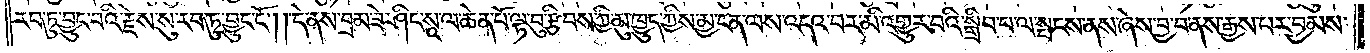རབ་ཏུ་བྱུང་བའི་རྗེས་སུ་རབ་ཏུ་བྱུང་ངོ༌། །དེ་ནས་བྲམ་ཟེ་ཤིང་སཱ་ལ་ཆེན་པོ་ལྟ་བུ་རྩིབས་ཀྱི་མུ་ཁྱུད་ཀྱིས་མྱ་ངན་ལས་འདའ་བར་མི་འགྱུར་བའི་སྒྲིབ་པ་ལ་སྤངས་ནས་ཞེས་བྱ་བ་ནས་རྒྱས་པར་བྱམས་
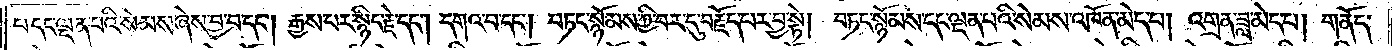པ་དང་ལྡན་པའི་སེམས་ཞེས་བྱ་བ་དང༌། རྒྱས་པར་སྙིང་རྗེ་དང༌། དགའ་བ་དང༌། བཏང་སྙོམས་ཀྱི་བར་དུ་བརྗོད་པར་བྱ་སྟེ། བཏང་སྙོམས་དང་ལྡན་པའི་སེམས་འཁོན་མེད་པ། འགྲན་ཟླ་མེད་པ། གནོད་
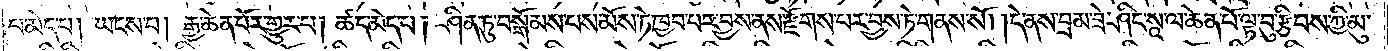པ་མེད་པ། ཡངས་པ། རྒྱ་ཆེན་པོར་གྱུར་པ། ཚད་མེད་པ། ཤིན་ཏུ་བསྒོམས་པས་མོས་ཏེ་ཁྱབ་པར་བྱས་ནས་རྫོགས་པར་བྱས་ཏེ་གནས་སོ། །དེ་ནས་བྲམ་ཟེ་ཤིང་སཱ་ལ་ཆེན་པོ་ལྟ་བུ་རྩིབས་ཀྱི་མུ་
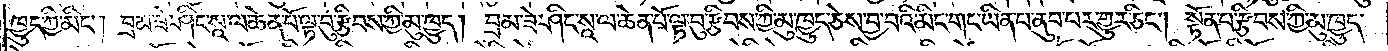ཁྱུད་ཀྱི་མིང༌། བྲམ་ཟེ་ཤིང་སཱ་ལ་ཆེན་པོ་ལྟ་བུ་རྩིབས་ཀྱི་མུ་ཁྱུད། བྲམ་ཟེ་ཤིང་སཱ་ལ་ཆེན་པོ་ལྟ་བུ་རྩིབས་ཀྱི་མུ་ཁྱུད་ཅེས་བྱ་བའི་མིང་གང་ཡིན་པ་ནུབ་པར་གྱུར་ཅིང༌། སྟོན་པ་རྩིབས་ཀྱི་མུ་ཁྱུད་
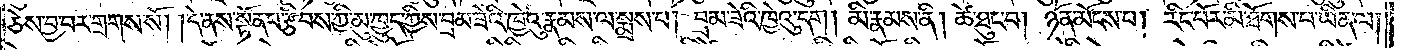ཅེས་བྱ་བར་གྲགས་སོ། །དེ་ནས་སྟོན་པ་རྩིབས་ཀྱི་མུ་ཁྱུད་ཀྱིས་བྲམ་ཟེའི་ཁྱེའུ་རྣམས་ལ་སྨྲས་པ། བྲམ་ཟེའི་ཁྱེའུ་དག །མི་རྣམས་ནི། ཚེ་ཐུང་བ། ཉོན་མོངས་པ། རིང་པོར་མི་ཐོགས་པ་ཡིན་ལ།
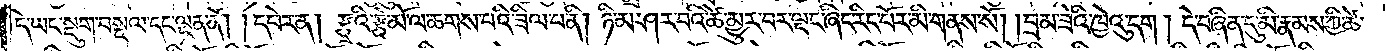དེ་ཡང་སྡུག་བསྔལ་དང་ལྡན་ནོ། །དཔེར་ན། རྩྭའི་རྩེ་མོ་ལ་ཆགས་པའི་ཟིལ་པ་ནི། ཉི་མ་ཤར་བའི་ཚེ་མྱུར་བར་ལྡང་ཞིང་རིང་པོར་མི་གནས་སོ། །བྲམ་ཟེའི་ཁྱེའུ་དག །དེ་བཞིན་དུ་མི་རྣམས་ཀྱི་ཚེ་
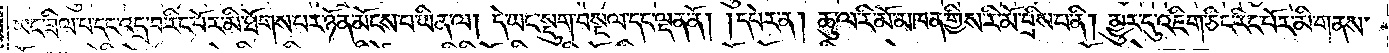ཡང་ཟིལ་པ་དང་འདྲ་བ་རིང་པོར་མི་ཐོགས་པར་ཉོན་མོངས་པ་ཡིན་ལ། དེ་ཡང་སྡུག་བསྔལ་དང་ལྡན་ནོ། །དཔེར་ན། ཆུ་ལ་རི་མོ་མཁན་གྱིས་རི་མོ་བྲིས་པ་ནི། མྱུར་དུ་འཇིག་ཅིང་རིང་པོར་མི་གནས་
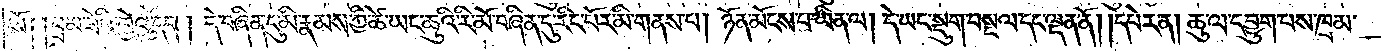སོ། །བྲམ་ཟེའི་ཁྱེའུ་དག། དེ་བཞིན་དུ་མི་རྣམས་ཀྱི་ཚེ་ཡང་ཆུའི་རི་མོ་བཞིན་དུ་རིང་པོར་མི་གནས་པ། ཉོན་མོངས་པ་ཡིན་ལ། དེ་ཡང་སྡུག་བསྔལ་དང་ལྡན་ནོ། །དཔེར་ན། ཆུ་ལ་དབྱུག་པས་ཁྲམ་
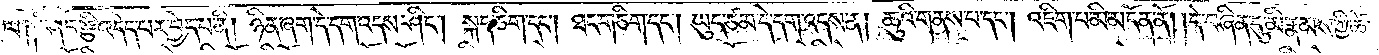པ༑ ཤིང་རྩི་འདེད་པར་བྱེད་པ་ནི། ཉིན་ཞག་དེ་དག་འདས་ཤིང༌། སྐད་ཅིག་དང༌། ཐང་གཅིག་དང༌། ཡུད་ཙམ་དེ་དག་འདས་ན། ཆུའི་གནས་པ་དང༌། འཇིག་པ་མི་མངོན་ནོ། །དེ་བཞིན་དུ་མི་རྣམས་ཀྱི་ཚེ་
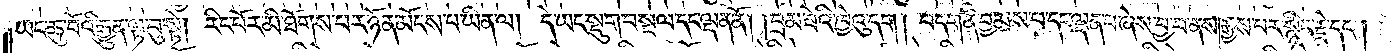ཡང་ཆུ་བོའི་རྒྱུན་ལྟ་བུ་སྟེ། རིང་པོར་མི་ཐོགས་པར་ཉོན་མོངས་པ་ཡིན་ལ། དེ་ཡང་སྡུག་བསྔལ་དང་ལྡན་ནོ། །བྲམ་ཟེའི་ཁྱེའུ་དག། བདག་ནི་བྱམས་པ་དང་ལྡན་པ་ཞེས་བྱ་བ་ནས། རྒྱས་པར་སྙིང་རྗེ་དང༌།
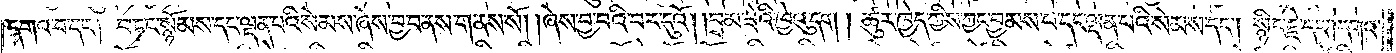དགའ་བ་དང༌། བཏང་སྙོམས་དང་ལྡན་པའི་སེམས་ཞེས་བྱ་བ་ནས་གནས་སོ། །ཞེས་བྱ་བའི་བར་དུའོ། །བྲམ་ཟེའི་ཁྱེའུ་དག། ཚུར་ཁྱེད་ཀྱིས་ཀྱང་བྱམས་པ་དང་ལྡན་པའི་སེམས་དང༌། སྙིང་རྗེ་དང༌། དགའ་
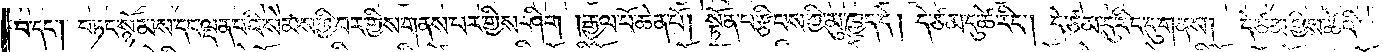བ་དང༌། བཏང་སྙོམས་དང་ལྡན་པའི་སེམས་ཀྱི་བར་གྱིས་གནས་པར་གྱིས་ཤིག །རྒྱལ་པོ་ཆེན་པོ། སྟོན་པ་རྩིབས་ཀྱི་མུ་ཁྱུད་དེ། དེ་ཙམ་དུ་ཚེ་རིང༌། དེ་ཙམ་དུ་རིང་དུ་གནས། དེ་ཙམ་གྱིས་ཚེའི་
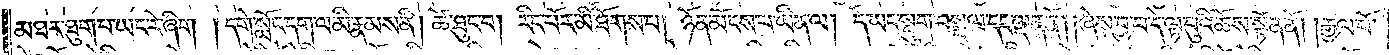མཐར་ཐུག་པ་ཡང་རེ་ཞིག །དགེ་སློང་དག་ལ་མི་རྣམས་ནི། ཚེ་ཐུང་བ། རིང་པོར་མི་ཐོགས་པ། ཉོན་མོངས་པ་ཡིན་ལ། དེ་ཡང་སྡུག་བསྔལ་དང་ལྡན་ནོ། །ཞེས་བྱ་བ་དེ་ལྟ་བུའི་ཆོས་སྟོན་ནོ། །རྒྱལ་པོ་
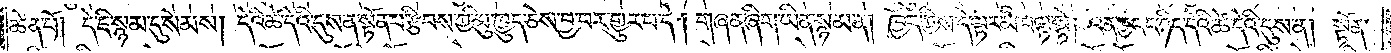ཆེན་པོ། དེ་ཇི་སྙམ་དུ་སེམས། དེའི་ཚེ་དེའི་དུས་ན་སྟོན་པ་རྩིབས་ཀྱི་མུ་ཁྱུད་ཅེས་བྱ་བར་གྱུར་པ་དེ། གཞན་ཞིག་ཡིན་སྙམ་ན། ཁྱོད་ཀྱིས་དེ་ལྟར་མི་བལྟ་སྟེ། འོན་ཀྱང་ང་ཉིད་དེའི་ཚེ་དེའི་དུས་ན། སྟོན་
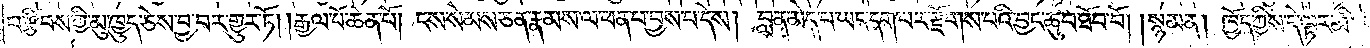པ་རྩིབས་ཀྱི་མུ་ཁྱུད་ཅེས་བྱ་བར་གྱུར་ཏོ། །རྒྱལ་པོ་ཆེན་པོ། ངས་སེམས་ཅན་རྣམས་ལ་ཕན་པ་བྱས་པ་དེས། བླ་ན་མེད་པ་ཡང་དག་པར་རྫོགས་པའི་བྱང་ཆུབ་ཐོབ་བོ། །སྙམ་ན། ཁྱོད་ཀྱིས་དེ་ལྟར་མི་
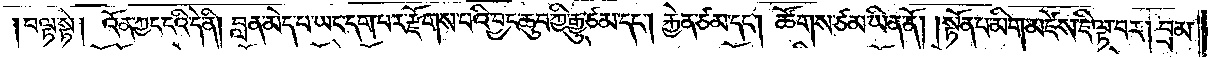བལྟ་སྟེ། འོན་ཀྱང་ངའི་དེ་ནི། བླ་ན་མེད་པ་ཡང་དག་པར་རྫོགས་པའི་བྱང་ཆུབ་ཀྱི་རྒྱུ་ཙམ་དང༌། རྐྱེན་ཙམ་དང༌། ཚོགས་ཙམ་ཡིན་ནོ། །སྟོན་པ་མིག་མཛེས་ཇི་ལྟ་བར། བྲམ་
